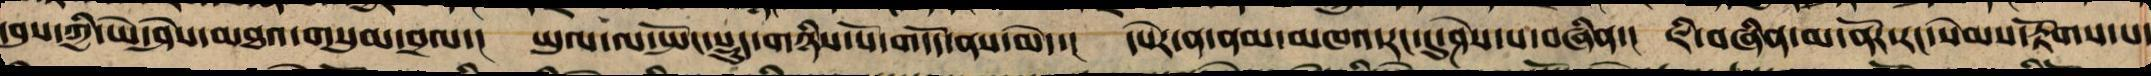དབུས་ཀྱི་ཡེ་ཤེས་མཐའ་གསུམ་བྲལ་། ཡུལ་ལ་སྤང་སྡུད་གཉིས་པོ་གདོད་ནས་མེད་། དཔེར་ན་ནམ་མཁའ་རང་དུ་ཤེས་པ་བཞིན་། ཇི་བཞིན་མ་ནོར་རང་སེམས་རྟོགས་པ་
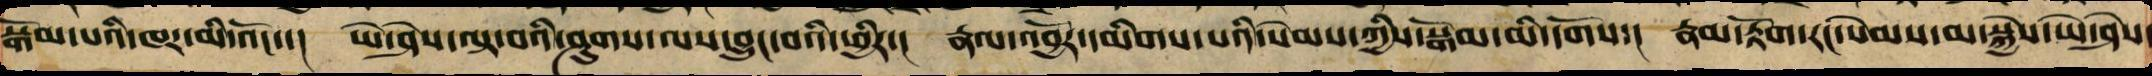བསྒོམ་པའི་ཁར་མི་འོང་་། ཡེ་ཤེས་ལྟ་བའི་ཤུགས་ལས་བྱུང་བའི་ཕྱིར་། རྣལ་འབྱོར་དམིགས་པའི་སེམས་ཀྱིས་བསྒོམ་མི་དགོས་། རྣམ་རྟོག་རང་སེམས་མ་སྐྱེས་ཡེ་ཤེས་
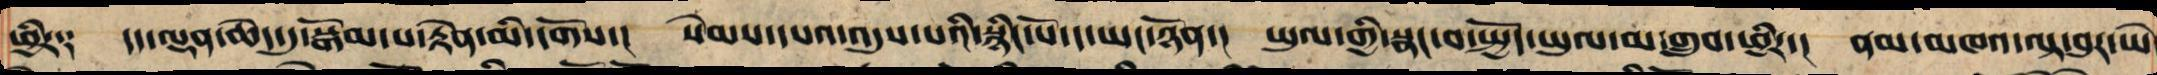ཕྱིར༑ དད་ལྡན་ཆེད་དུ་སྒོམ་པ་བརྟེན་མི་དགོས་། སེམས་དཔའ་འདུས་པའི་སྙིང་པོ་ད་ཡང་ཉོན་། ཡུལ་གྱི་སྣང་བ་སྤྱོད་ཡུལ་མ་གྲུབ་ཕྱིར་། ནམ་མཁའ་ལྟ་བུར་ཡེ་
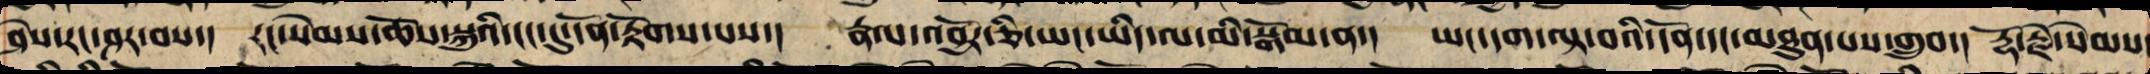ཤེས་རང་ཤར་བས་། རང་སེམས་ཆོས་སྐུའི་ངང་དུ་དོན་རྟོགས་པས་། རྣལ་འབྱོར་ཅི་ཡང་ཡིད་ལ་མི་བསྒོམ་ན་། ཡང་དག་ལྟ་བའི་དོན་དང་མཐུན་པར་འགྲུབ་། རྡོ་རྗེ་སེམས་
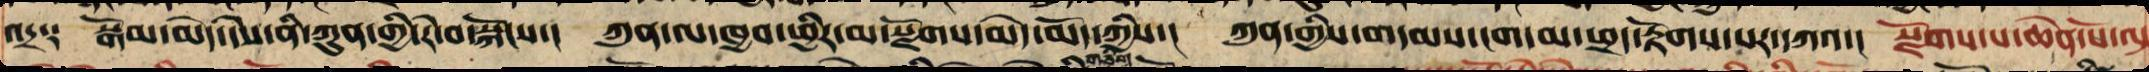འདྲ༑ སྒོམ་མེད་དེས་ནི་ཀུན་གྱི་རེ་བ་བསྐངས་། ཀུན་ལ་ཁྱབ་ཕྱིར་མ་སྫོགས་མེད་མོད་ཀྱིས་། ཀུན་གྱིས་གདམས་ངག་མ་ཕྲད་རྟོགས་པར་དཀའ་། སྫོགས་པ་ཆེན་པོ་ལྟ
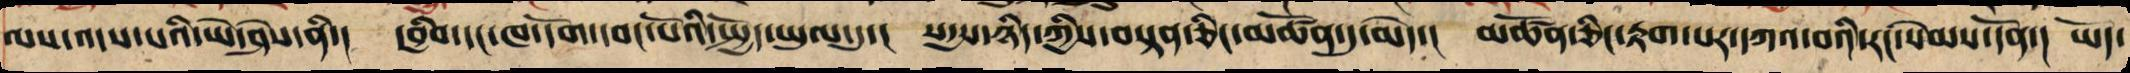ལས་འདས་པའི་ཡེ་ཤེས་ནི་། དབྱིབས་དང་ཁ་དོག་དབང་པོའི་སྤྱོད་ཡུལ་དུ་། སདྱས་ཉིད་ཀྱིས་བསྟན་ཅིང་མཚོན་དུ་མེད་། མཚོན་ཅིང་རྟག་པར་དཀའ་བའི་རང་སེམས་དོན་། ཡོད་
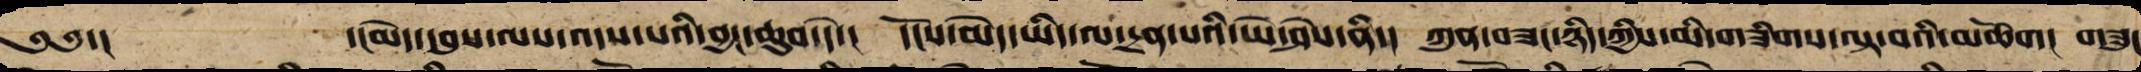༄༅་། ་།མེད་དབུས་ལས་འདས་པའི་བྱང་ཆུབ་དེ་། དངོས་མེད་ཡིད་ལ་དྲན་པའི་ཡེ་ཤེས་ནི་། ཀུན་བཟང་ཉིད་ཀྱིས་མི་གཟིགས་བལྟ་བའི་མཆོག། གཟུང་
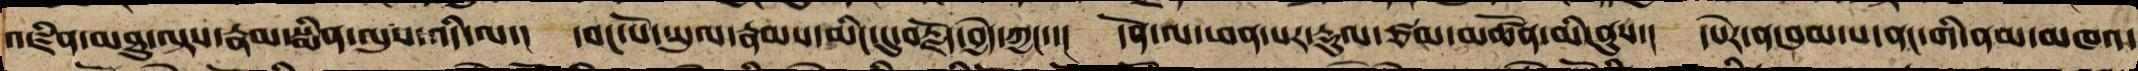འཛིན་མཐུ་ལྟས་རྣམ་སྨིན་ལུས་འདི་ལ་། དབང་པོ་ཡུལ་རྣམས་མིང་དུ་བརྗོད་བྱེད་ཀྱང་་། དོན་ལ་ཕན་པར་རྡུལ་ཙམ་མཚོན་མི་ནུས་། དཔེར་ན་བུམ་པའི་ནང་གི་ནམ་མཁའ་
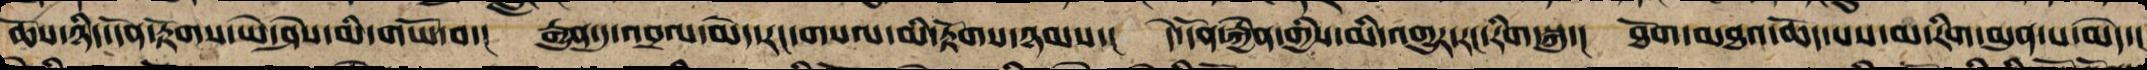ཆོས་ཉིད་དོན་རྟོགས་ཡེ་ཤེས་མི་གཡོ་བ་། རྒྱུན་དུ་འབྲལ་མེད་རང་གསལ་མི་རྟོག་ཉམས་། དེ་དོན་རྐྱེན་གྱིས་མི་འགྱུར་རང་རིག་སྐུ་།། ཐོག་མཐའ་ཆོད་པས་མ་རིག་མུན་པ་མེད་།
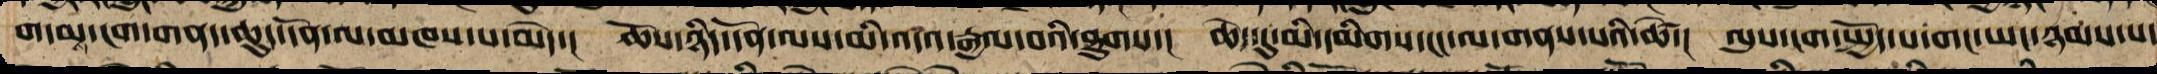གདམས་ངག་གནད་ཆུད་དོན་ལ་ཉམས་པ་མེད་། ཆོས་ཉིད་དོན་ལས་མི་འདའ་རྒྱལ་བའི་ཐུགས་། ཆེད་དུ་མི་དམིགས་ངང་ལ་གནས་པའི་ཚེ་། ལུས་ངག་སྤྱོད་པ་གང་ཡང་ཉམས་པ་
